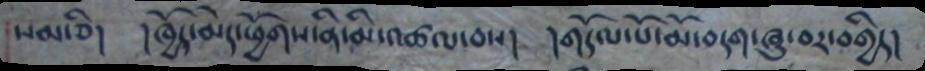སམ་ཅི། །ཁྱོད་མེད་ཕྱོགས་ནི་མི་འཚལ་བས། །གདོལ་པོ་མོ་བདག་ཞུ་བར་བགྱིད།
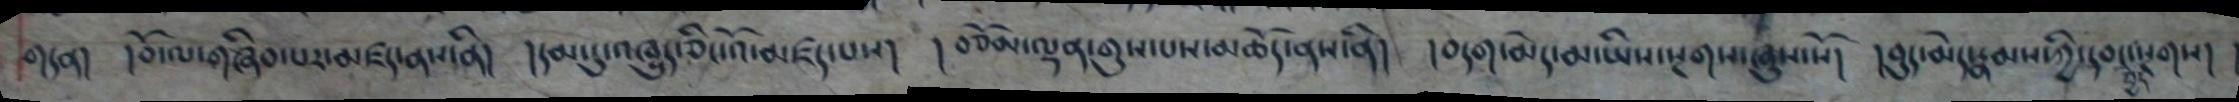གདན། །བོ་ལ་གཞིབ་པར་མཛད་ནས་ནི། །དམ་དུ་འཁྱུད་ཅིང་འོ་མཛད་པས། །བཅོམ་ལྡན་གུས་པས་མཆོད་ནས་ནི། །བདག་མེད་མ་ཡིས་སྔགས་ཞུས་སོ། །བུད་མེད་རྣམས་ཀྱི་དབང་སྔགས།
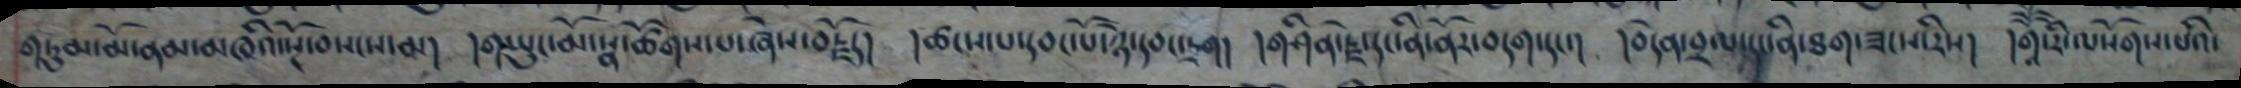གཏུམ་མོ་ནམ་མཁའི་སྔོ་བསངས་མ། །གཡུང་མོ་སྣ་ཚོགས་པ་ཞེས་བརྗོད། །ཚངས་པ་དབང་པོ་ཉེ་དབང་དྲག། །གཤིན་རྗེ་དང་ནི་ནོར་བདག་དང་། །བདེན་བྲལ་དང་ནི་ཐག་ཟངས་རིས། །གཱཽ་རི་ལ་སོགས་པའི་
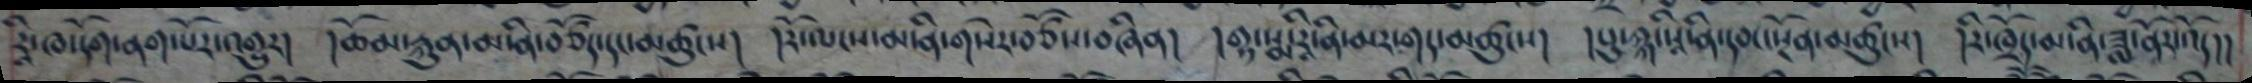རཱི་ཁ་དོག་ནག་པོར་འགྱུར། །ཆོམ་རྐུན་མ་ནི་བཙོད་དང་མཚུངས། །རོ་ལངས་མ་ནི་གསེར་བཙོས་བཞིན། །གྷ་སྨ་རཱི་ནི་མར་གད་མཚུངས། །པུ་ཀྐ་སཱི་ནི་དབང་སྔོན་མཚུངས། །རི་ཁྲོད་མ་ནི་ཟླ་ནོར་འོད།།
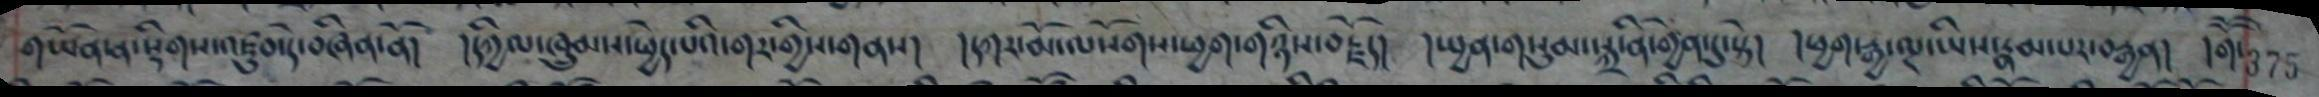གཡོན་ན་སྡིགས་འཛུབ་དེ་བཞིན་ནོ།  །དཀྱིལ་ཁྲུམས་ཕྱེད་པའི་གར་གྱིས་གནས།  །དཀར་མོ་ལསོགས་ཕྱག་གཉིས་བརྗོད།  །སྤྱན་གསུམ་སྐྲ་ན་གྱེན་དུ་སྟེ།   །ཕྱག་རྒྱ་ལྔ་ཡིས་རྣམ་པར་བརྒྱན།   །གོོ375
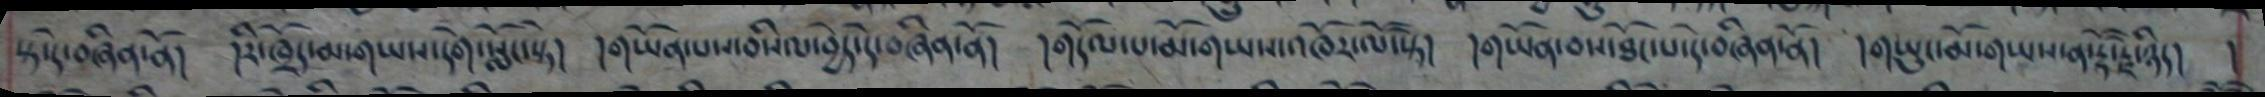སྟ་དེ་བཞིན་ནོ། །རི་ཁྲོད་མ་གཡས་དགེ་སློང་སྟེ། །གཡོན་པས་བསིལ་བྱེད་དེ་བཞིན་ནོ། །གདོལ་པ་མོ་གཡས་འཁོར་ལོ་སྟེ། །གཡོན་བས་ཐོང་པ་དེ་བཞིན་ནོ། །གཡུང་མོ་གཡས་ན་རྡོ་རྗེ་ཉིད། །
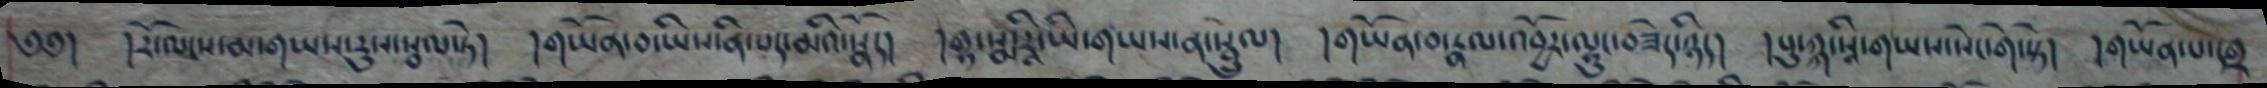༄༅། །རོ་ལངས་མ་གཡས་རུས་སྦལ་ཏེ། །གཡོན་བ་ཡིས་ནི་པད་མའི་སྣོད། །གྷ་སྨ་རཱི་ཡི་གཡས་ན་སྦྲུལ། །གཡོན་བ་རྣལ་འབྱོར་ལྷུང་བཟེད་ཉིད། །པུ་ཀྐ་སཱི་གཡས་སེང་གེ་སྟེ། །གཡོན་པ་དགྲ
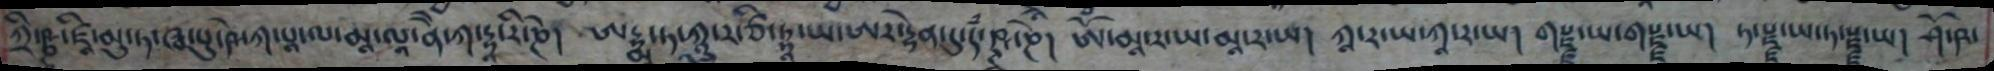ཀྲི་ཥྞ་ཛཱི་མུ་ཏ་ཝ་པུ་ཥེ་ཀ་པཱ་ལ་མཱ་ལཱ་ནེེ་ཀ་དྷཱརི་ཎེ།  ཨ་དྷྨ་ཏ་ཀཱུ་ར་ཙི་ཏྟཱ་ཡ་ཨར་དྷེན་དུ་དཾ་ཥྚ་ཎེ།  ཨོཾ་མཱ་ར་ཡ་མཱ་ར་ཡ།  ཀཱ་ར་ཡ་ཀཱ་ར་ཡ།  གརྗྫ་ཡ་གརྗྫ་ཡ།   ཏ་རྗྫ་ཡ་ཏ་རྗྫ་ཡ།  ཤོ་ཥ་
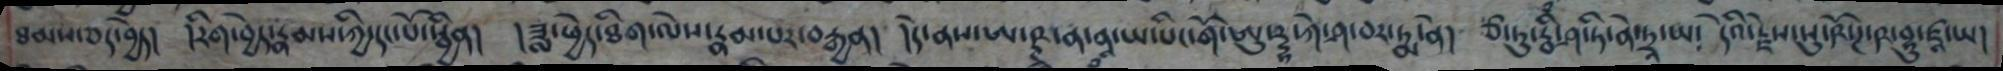ཐམས་ཅད་བྱེད། །རིག་བྱེད་རྣམས་ཀྱི་དང་པོ་སྦྱིན། །ཟླ་ཕྱེད་ཐིག་ལེས་རྣམ་པར་བརྒྱན། །དེ་ནས་ཨ་ཥྚ་ན་ནཱ་ཡ་པིང་གོ་ཨུ་རཥྡྷ་ཀེ་ཤ་བར་ཏྨ་ནེ། ཙ་ཏུ་རྦིཾ་ཤ་ཏི་ནེ་ཏྲཱ་ཡ། དེའི་རྗེས་སུ་ཥོ་ཌ་ཥ་བྷུ་ཛཱ་ཡ།
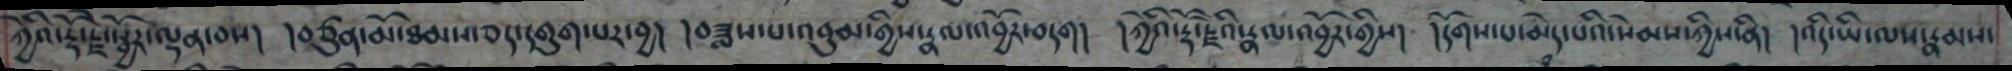ཀྱེའི་རྡོ་རྗེ་སྦྱོར་ལྡན་བས། །བཙུན་མོ་ཐམས་ཅད་དགུག་པར་བྱ། །བཟླས་པ་འབུམ་གྱིས་རྣལ་འབྱོར་བདག། །ཀྱེའི་རྡོ་རྗེའི་རྣལ་འབྱོར་གྱིས། །དོགས་པ་མེད་པའི་སེམས་ཀྱིས་ནི། །འདི་ཡི་ལས་རྣམས་
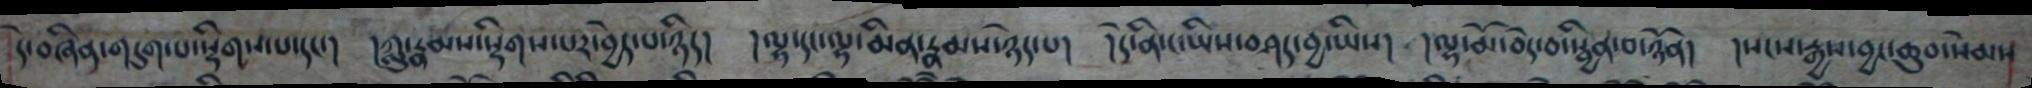དེ་བཞིན་གདུག་པ་སྡིགས་པ་དང་། །ཀླུ་རྣམས་སྡིགས་པར་བྱེད་པ་ཉིད། །ལྷ་དང་ལྷ་མིན་རྣམས་ཉེད་པ། །དེ་ནི་ང་ཡིས་བཤད་བྱ་ཡིས། །ལྷ་མོ་བདེ་བ་སྦྱིན་བ་ཉོན། །སངས་རྒྱས་བྱང་ཆུབ་སེམས
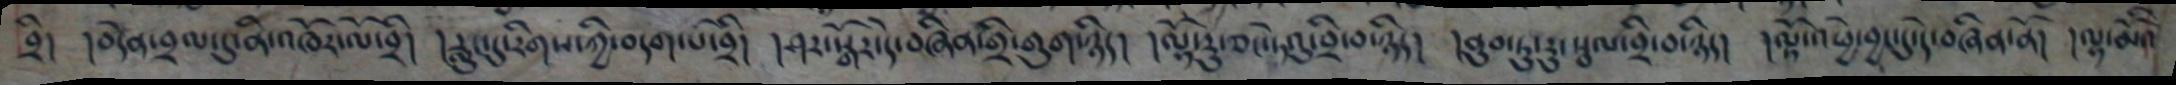བྲི། །བདེན་བྲལ་དུ་ནི་འཁོར་ལོ་བྲི། །རླུང་དུ་རིགས་ཀྱི་བདག་པོ་བྲི། །ཤར་སྒོར་དེ་བཞིན་གྲི་གུག་ཉིད། །ལྷོ་རུ་ཅང་ཏེའུ་བྲི་བ་ཉིད། །ནུབ་ཏུ་རུ་སྦལ་བྲི་བ་ཉིད། །ལྟོ་འཕྱེ་བྱང་དུ་དེ་བཞིན་ནོ། །ལྷ་མོའི
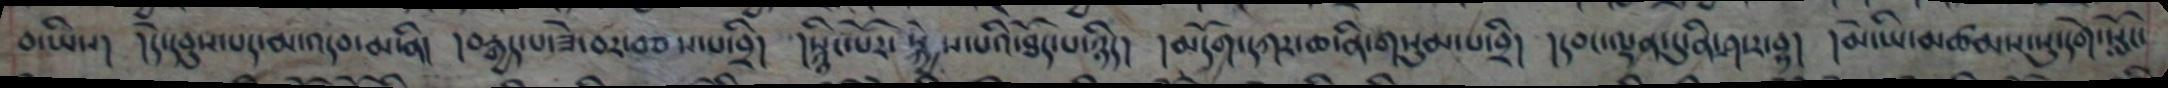བ་ཡིས། །དེ་དབུས་པད་མ་འདབ་མ་ནི། །བརྒྱད་པ་ཟེ་བར་བཅས་པ་བྲི། །སྙིང་པོར་སྐྱེས་པའི་ཐོད་པ་ཉིད། །མདོག་དཀར་ཆ་ནི་གསུམ་པ་བྲི། །དབང་ལྡན་དུ་ནི་ཤ་ར་བྷ། །མེ་ཡི་མཚམས་སུ་དགེ་སློང་
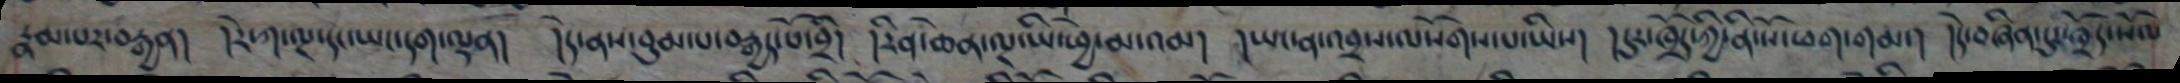རྣམ་པར་བརྒྱན། །རེ་ཀ་ལྔ་དང་ཡང་དག་ལྡན། །དེ་ནས་བུམ་པ་བརྒྱད་པོ་བྲི། །རིན་ཆེན་ལྔ་ཡི་ཕྱེ་མ་འམ། །ཡང་ན་འབྲས་ལསོགས་པ་ཡིས། །དུར་ཁྲོད་ཀྱི་ནི་སོ་ཕག་གམ་། །དེ་བཞིན་དུར་ཁྲོད་སོལ
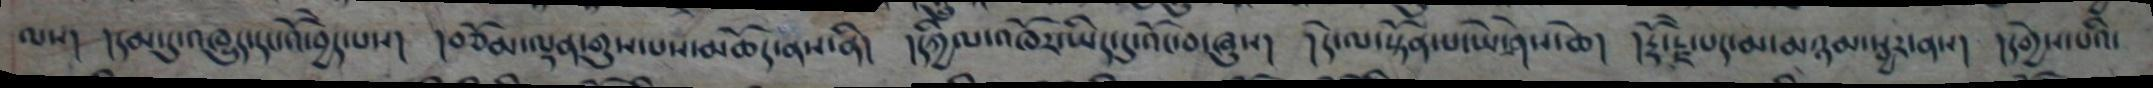ལས། །དམ་དུ་འཁྱུད་དང་འོ་བྱེད་པས། །བཅོམ་ལྡན་གུས་པས་མཆོད་ནས་ནི། །དཀྱིལ་འཁོར་ཡིད་དུ་འོང་བ་ཞུས། །དེ་ལ་སྟོན་པ་ཡེ་ཤེས་ཆེ། །རྡོ་རྗེ་པས་མ་མཉམ་སྦྱར་ནས། །དགྱེས་པའི་
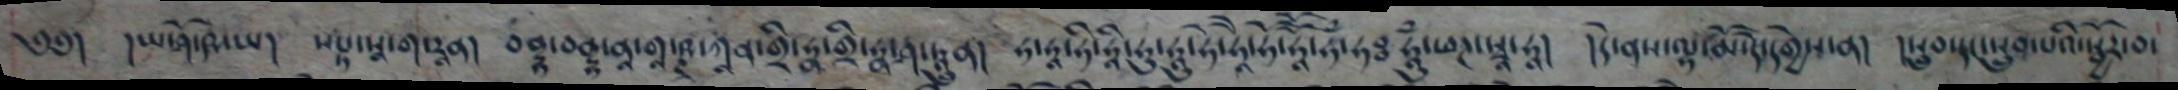༄༅། །ཡ་ཤོ་ཥ་ཡ། སཔྟ་སཱ་ག་རཱན། བནྡྷ་བནྡྷ་ནཱ་གཱ་ཥྚ་ཀཱན་གྲི་ཧྣ་གྲི་ཧྣ་ཤ་ཏྰུན། ཧ་ཧཱ་ཧི་ཧཱི་ཧུ་ཧཱུ་ཧེ་ཧཱཻ་ཧོ་ཧཱོོ་ཧྃ་ཧཿ ཧཱུཾ་ཕཊ་སྭཱ་ཧཱ། །དེ་ནས་ལྷ་མོ་དེ་དགྱེས་ན། །སྲུབ་དང་སྲུབ་པའི་སྦྱོར་བ་
